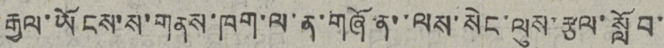རྒྱལ་ཡོངས་ས་གནས་ཁག་ལ་ན་གཞོན་ལས་སེང་ལུས་རྩལ་སློབ་
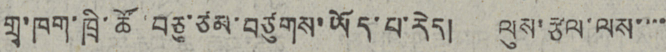གྲྭ་ཁག་ཁྲི་ཚོ་བཅུ་ཙམ་བཙུགས་ཡོད་པ་རེད། ལུས་རྩལ་ལས་་་་
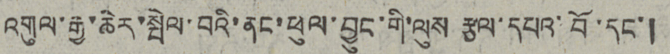འགུལ་རྒྱ་ཆེར་སྤེལ་བའི་ནང་ཕུལ་བྱུང་གི་ལུས རྩལ་དཔའ་བོ་དང་།
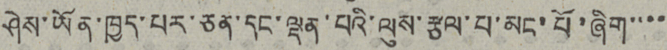ཤེས་ཡོན་ཁྱད་པར་ཅན་དང་ལྡན་པའི་ལུས་རྩལ་པ་མང་པོ་ཞིག་་་་
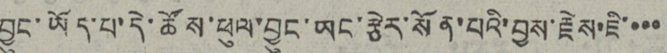བྱུང་ཡོད་པ་དེ་ཚོས་ཕུལ་བྱུང་ཡང་རྩེར་སོན་པའི་བྱས་རྗེས་ཇི་་་་
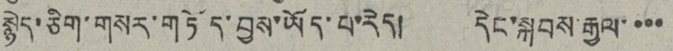སྙེད་ཅིག་གསར་གཏོད་བྱས་ཡོད་པ་རེད། དེང་སྐབས་རྒྱལ་་་་
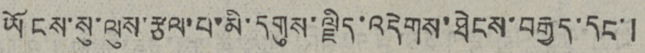ཡོངས་སུ་ལུས་རྩལ་པ་མི་དགུས་ལྗིད་འདེགས་ཐེངས་བརྒྱད་དང་།
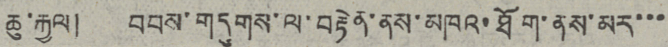ཆུ་རྐྱལ། བབས་གདུགས་ལ་བརྟེན་ནས་མཁའ་ཐོག་ནས་མར་་་
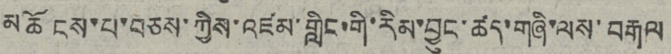མཆོངས་པ་བཅས་ཀྱིས་འཛམ་གླིང་གི་རིམ་བྱུང་ཚད་གཞི་ལས་བརྒལ
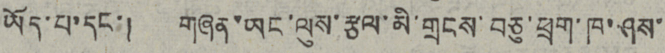ཡོད་པ་དང་། གཞན་ཡང་ལུས་རྩལ་མི་གྲངས་བཅུ་ཕྲག་ཁ་ཤས་
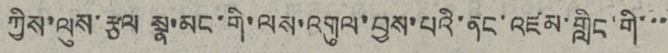ཀྱིས་ལུས་རྩལ སྣ་མང་གི་ལས་འགུལ་བྱས་པའི་ནང་འཛམ་གླིང་གི་་་
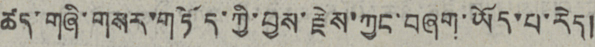ཚད་གཞི་གསར་གཏོད་ཀྱི་བྱས་རྗེས་ཀྱང་བཞག་ཡོད་པ་རེད།
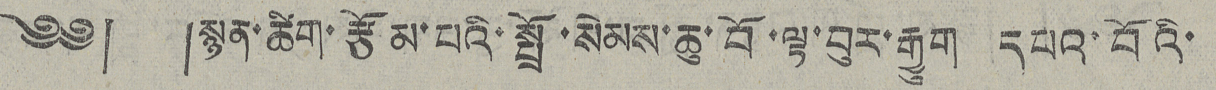༄༅། །སྙན་ཚིག་རྩོམ་པའི་སྤྲོ་སེམས་ཆུ་བོ་ལྟ་བུར་རྒྱག དཔའ་བོའི་
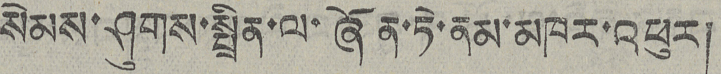སེམས་ཤུགས་སྤྲིན་ལ་ཞོན་ཏེ་ནམ་མཁར་འཕུར།
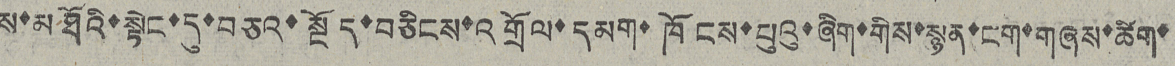ས་མཐོའི་སྟེང་དུ་བཅའ་སྔོད་བཅིངས་འགྲོལ་དམག་ཁོངས་པུའུ་ཞིག་གིས་སྙན་ངག་གཞས་ཚིག་
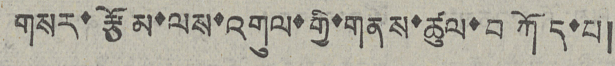གསར་རྩོམ་ལས་འགུལ་གྱི་གནས་ཚུལ་བཀོད་པ།
